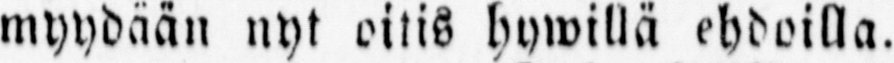myydään nyt oitis hywillä ehdoilla.
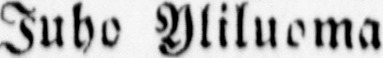Juho Yliluoma
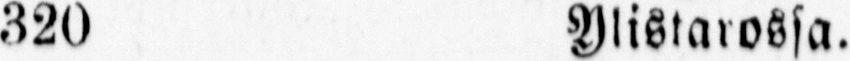320 Ylistarossa.
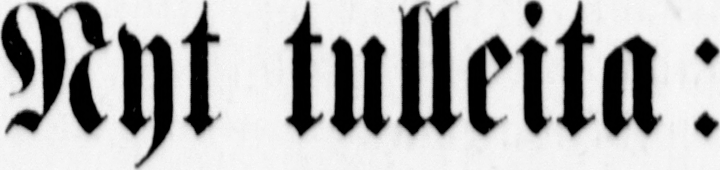Nyt tulleita:
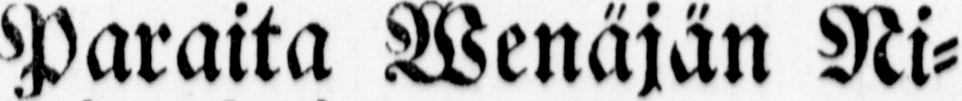Paraita Wenäjän Ni-
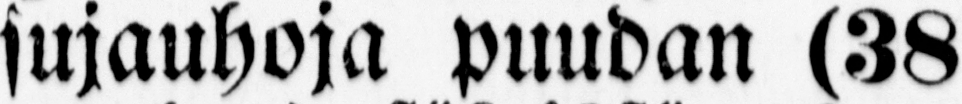sujauhoja puudan (38
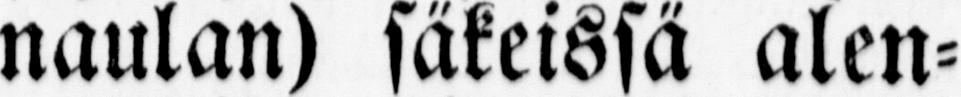naulan) säkeissä alen-
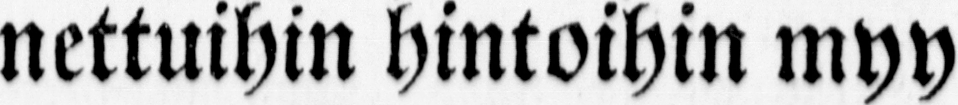nettuihin hintoihin myy
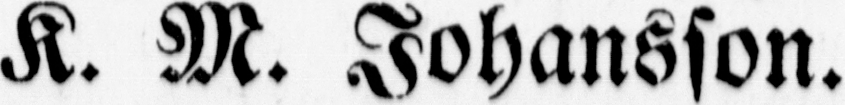K. M. Johansson.
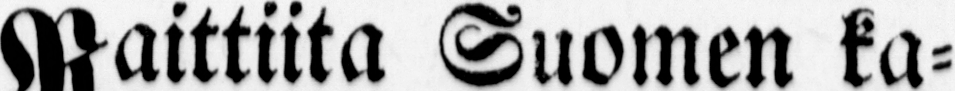Raittiita Suomen ka-
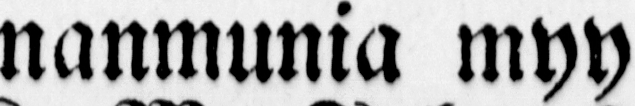nanmunia myy
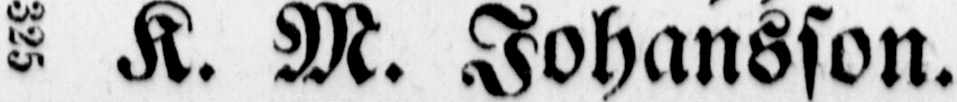325 K. M. Johansson.
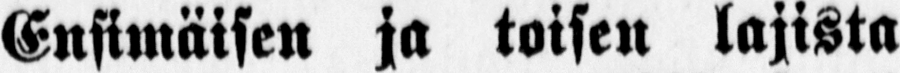Ensimäisen ja toisen lajista
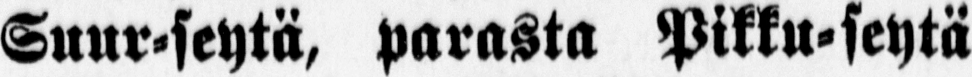Suur-seytä, parasta Pikku-seytä
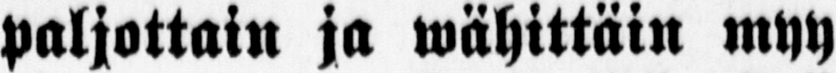paljottain ja wähittäin myy
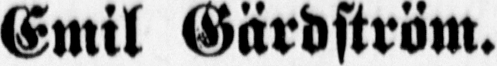Emil Gärdström.
